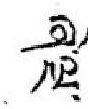ཞེ་ལྔ་
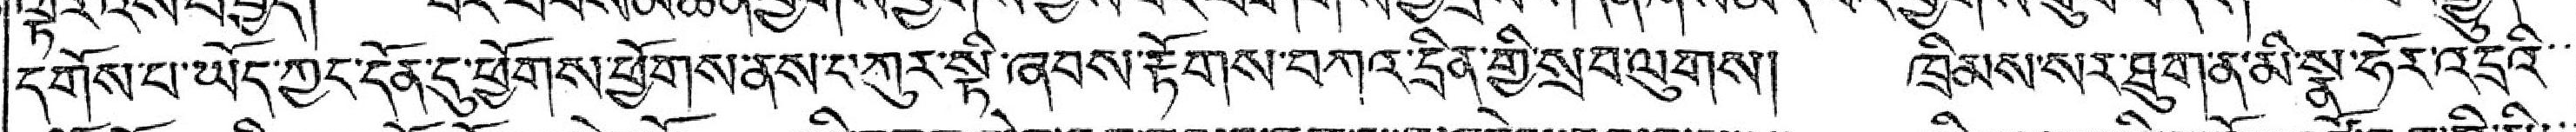དགོས་པ་ཡོད་ཀྱང་དོན་དུ་ཕྱོགས་ཕྱོགས་ནས་ང་ཀུར་སྟི་ཞབས་རྟོགས་བཀའ་དྲིན་གྱི་སྲབ་ལུགས། ཁྲིམས་སར་ཐུག་ན་མི་སྣ་ཧོར་འདྲའི་་
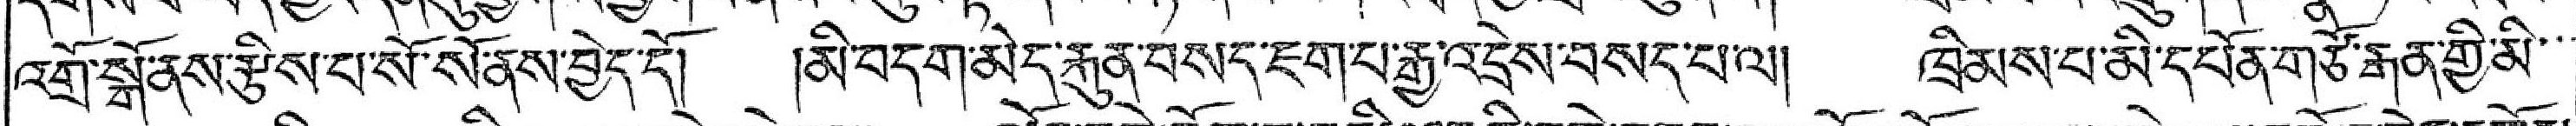འགྲོ་སྒོ་ནས་རྩིས་པ་སོ་སོ་ནས་བྱེད་དོ། །མི་བདག་མེད་རྐུན་བསད་ཇག་པ་རྒྱ་འདྲེས་བསད་པ་ལ། ཁྲིམས་པ་མི་དཔོན་གཙོ་རྒན་གྱི་མི་་་
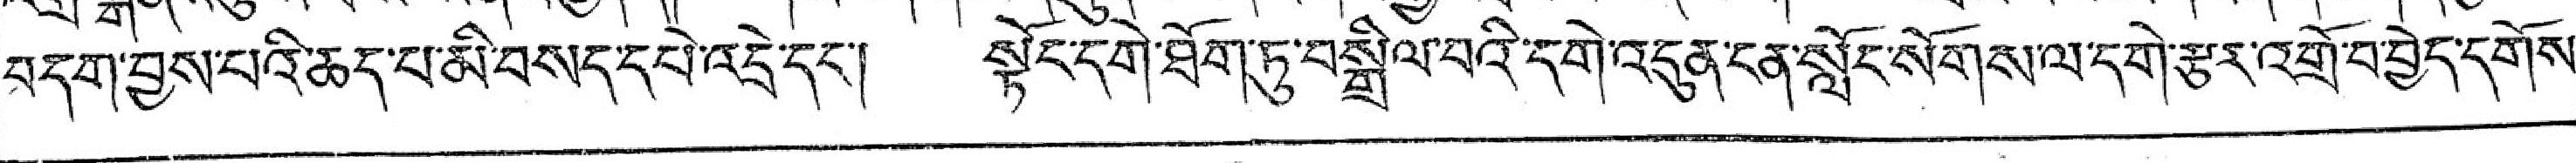བདག་བྱས་པའི་ཆད་པ་མི་བསད་དཔེ་འདྲེ་དང་། སྟོང་དགེ་ཐོག་ཏུ་བསྒྲིལ་བའི་དགེ་འདུན་ངན་སློང་སོགས་ལ་དགེ་རྩར་འགྲོ་བ་བྱེད་དགོས་
